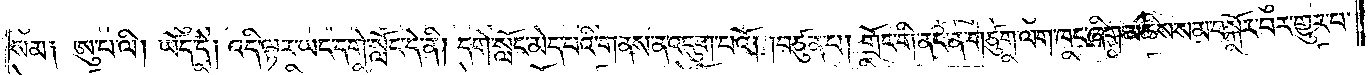སམ༑ ཨུ་པ་ལི། ཡོད་དེ། འདི་ལྟར་ཡང་དགེ་སློང་དེ་ནི། དགེ་སློང་མེད་པའི་གནས་ན་འདུག་པའོ། །བཙུན་པ། གྲོང་གི་ནང་ན་གཙུག་ལག་ཁང་ཞིག་མཆིས་སམ་བསྐོར་བར་གྱུར་པ་
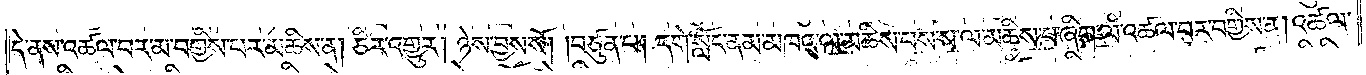དེ་ནས་འཚལ་བར་མ་བགྱིས་པར་མཆིས་ན། ཅིར་འགྱུར། ཉེས་བྱས་སོ། །བཙུན་པ། དགེ་སློང་ནམ་མཁའ་ལ་མཆིས་པས་ས་ལ་མཆིས་པ་ཞིག་ལ་འཚལ་བར་བགྱིས་ན། འཚལ་
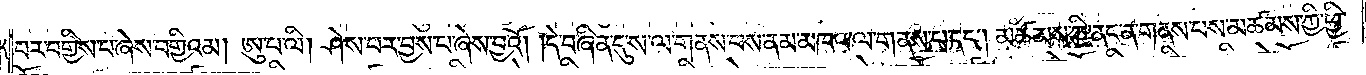བར་བགྱིས་པ་ཞེས་བགྱིའམ། ཨུ་པ་ལི། ཤེས་པར་བྱས་པ་ཞེས་བྱའོ། །དེ་བཞིན་དུ་ས་ལ་གནས་པས་ནམ་མཁའ་ལ་གནས་པ་དང༌། མཚམས་ཀྱི་ནང་ན་གནས་པས་མཚམས་ཀྱི་ཕྱི་
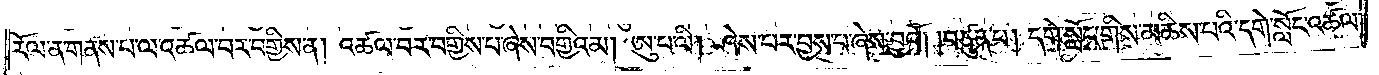རོལ་ན་གནས་པ་ལ་འཚལ་བར་བགྱིས་ན། འཚལ་བར་བགྱིས་པ་ཞེས་བགྱིའམ། ཨུ་པ་ལི། ཤེས་པར་བྱས་པ་ཞེས་བྱའོ། །བཙུན་པ། དགེ་སློང་གིས་མཆིས་པའི་དགེ་སློང་འཚལ་
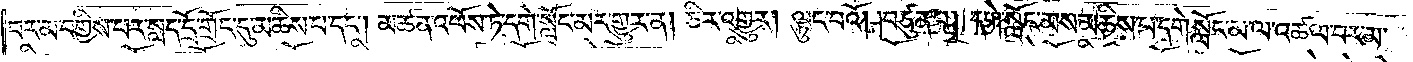བར་མ་བགྱིས་པར་སླད་དྲོ་གྲོང་དུ་མཆིས་པ་དང༌། མཚན་འཕོས་ཏེ་དགེ་སློང་མར་གྱུར་ན། ཅིར་འགྱུར། ལྟུང་བའོ། །བཙུན་པ། དགེ་སློང་མས་མཆིས་པ་དགེ་སློང་མ་ལ་འཚལ་བར་མ་
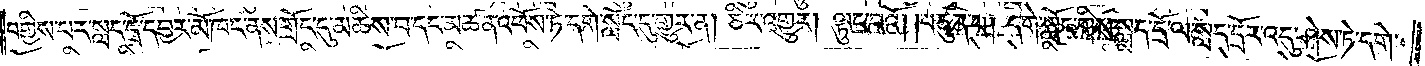བགྱིས་པར་སླད་དྲོ་དབྱར་མོ་ཁང་ནས་གྲོང་དུ་མཆིས་པ་དང་མཚན་འཕོས་ཏེ་དགེ་སློང་དུ་གྱུར་ན། ཅིར་འགྱུར། ལྟུང་བའོ། །བཙུན་པ། དགེ་སློང་གིས་སླད་དྲོ་ལ་སླད་དྲོར་འདུ་ཤེས་ཏེ་དགེ་
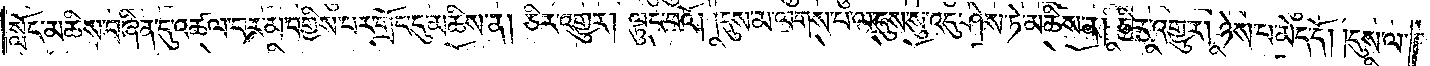སློང་མཆིས་བཞིན་དུ་འཚལ་བར་མ་བགྱིས་པར་གྲོང་དུ་མཆིས་ན། ཅིར་འགྱུར། ལྟུང་བའོ། །དུས་མ་ལགས་པ་ལ་དུས་སུ་འདུ་ཤེས་ཏེ་མཆིས་ན། ཅིར་འགྱུར། ཉེས་པ་མེད་དོ། །དུས་ལ་
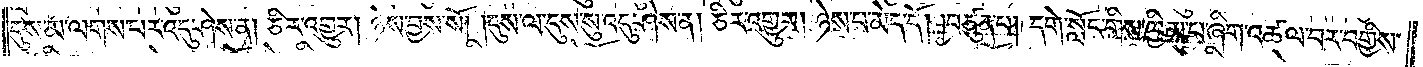དུས་མ་ལགས་པར་འདུ་ཤེས་ན། ཅིར་འགྱུར། ཉེས་བྱས་སོ། །དུས་ལ་དུས་སུ་འདུ་ཤེས་ན། ཅིར་འགྱུར། ཉེས་པ་མེད་དོ། །བཙུན་པ། དགེ་སློང་གིས་ཁྱིམ་པ་ཞིག་འཚལ་བར་བགྱིས་
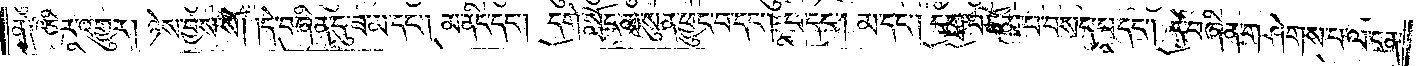ན༑ ཅིར་འགྱུར། ཉེས་བྱས་སོ། །དེ་བཞིན་དུ་ཟ་མ་དང༌། མ་ནིང་དང༌། དགེ་སློང་མ་སུན་ཕྱུང་བ་དང༌། ཕ་དང༌། མ་དང༌། དགྲ་བཅོམ་པ་བསད་པ་དང༌། དེ་བཞིན་གཤེགས་པ་ལ་ངན་
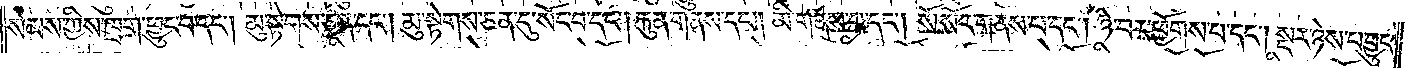སེམས་ཀྱིས་ཁྲག་ཕྱུང་བ་དང༌། མུ་སྟེགས་ཅན་དང༌། མུ་སྟེགས་ཅན་དུ་སོང་བ་དང༌། རྐུན་གནས་དང༌། མི་གནས་པ་དང༌། སོ་སོར་གནས་པ་དང༌། ཉེ་བར་ཕྱོགས་པ་དང༌། སྔར་ཉེས་པ་བྱུང་
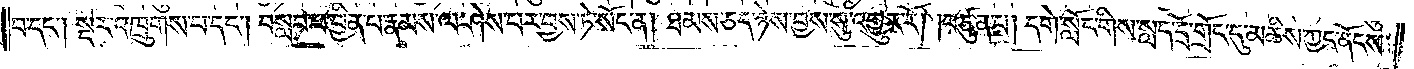བ་དང༌། སྔར་འཁྲུགས་པ་དང༌། བསླབ་པ་བྱིན་པ་རྣམས་ལ་ཤེས་པར་བྱས་ཏེ་སོང་ན། ཐམས་ཅད་ཉེས་བྱས་སུ་འགྱུར་རོ། །བཙུན་པ། དགེ་སློང་གིས་སླད་དྲོ་གྲོང་དུ་མཆིས་ཀྱང་ནོངས་
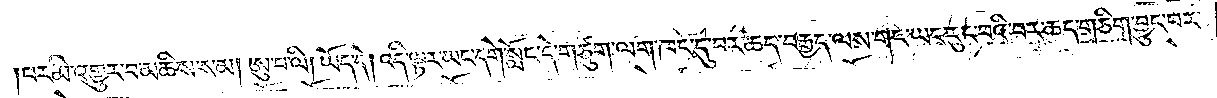།པར་མི་འགྱུར་བ་མཆིས་སམ། ཨུ་པ་ལི། ཡོད་དེ། འདི་ལྟར་ཡང་དགེ་སློང་དེ་གཙུག་ལག་ཁང་དུ་བར་ཆད་བརྒྱད་ལས་གང་ཡང་རུང་བའི་བར་ཆད་གཅིག་བྱུང་བར་
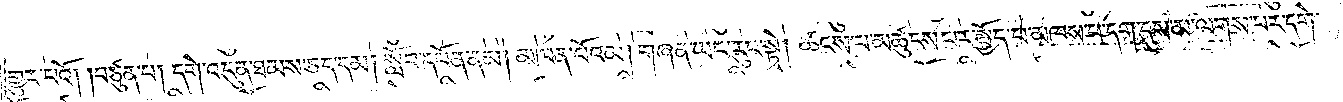གྱུར་པའོ། །བཙུན་པ། དགེ་འདུན་ཐམས་ཅད་དམ། སློབ་དཔོན་ནམ། མཁན་པོའམ། གཞན་ཡང་རུང་སྟེ། ཚངས་པ་མཚུངས་པར་སྤྱོད་པ་མཁས་པ་དག་དུས་མ་ལགས་པར་དགེ་
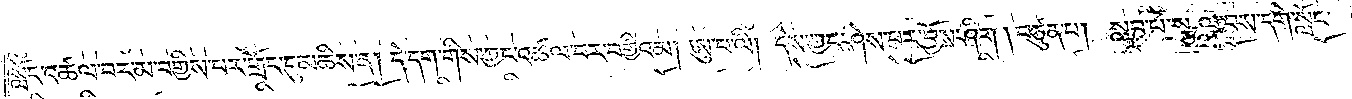སློང་འཚལ་བར་མ་བགྱིས་པར་གྲོང་དུ་མཆིས་ན། དེ་དག་གིས་ཀྱང་འཚལ་བར་བགྱིའམ། ཨུ་པ་ལི། དེས་ཀྱང་ཤེས་པར་བྱོས་ཤིག །བཙུན་པ། སླབ་པ་སྩལ་བས་དགེ་སློང་
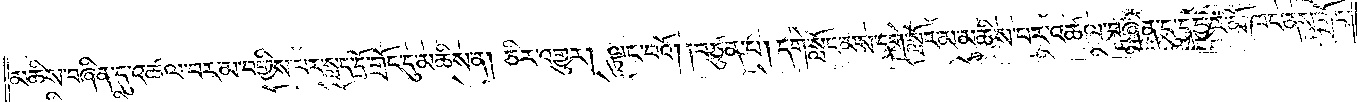མཆིས་བཞིན་དུ་འཚལ་བར་མ་བགྱིས་པར་སླད་དྲོ་གྲོང་དུ་མཆིས་ན། ཅིར་འགྱུར། ལྟུང་བའོ། །བཙུན་པ། དགེ་སློང་མས་དགེ་སློང་མ་མཆིས་པར་འཚལ་བཞིན་དུ་དབྱར་མོ་ཁང་ནས་གྲོང་
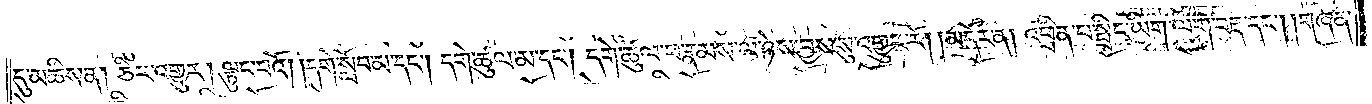དུ་མཆིས་ན། ཅིར་འགྱུར། ལྟུང་བའོ། །དགེ་སློབ་མ་དང༌། དགེ་ཚུལ་མ་དང༌། དགེ་ཚུལ་ཕ་རྣམས་ལ་ཉེས་བྱས་སུ་འགྱུར་རོ།    །མདོར་ན། འཕྲིན་པ་སྤྲིང་ཡིག་ལག་བརྡ་དང༌། །གཞན་
